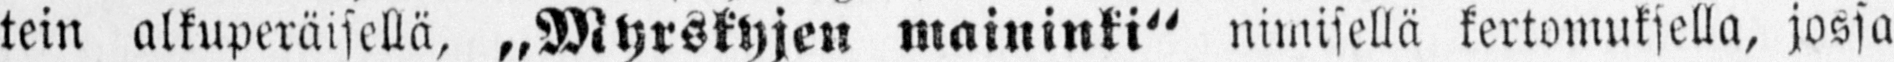tein alkuperäisellä, „Myrskyjen maininki" nimisellä kertomuksella, jossa
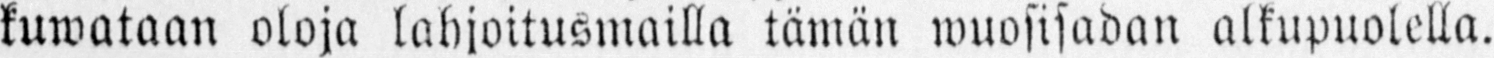kuwataan oloja lahjoitusmailla tämän wuosisadan alkupuolella.
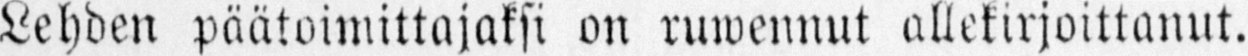Lehden päätoimittajaksi on ruwennut allekirjoittanut.
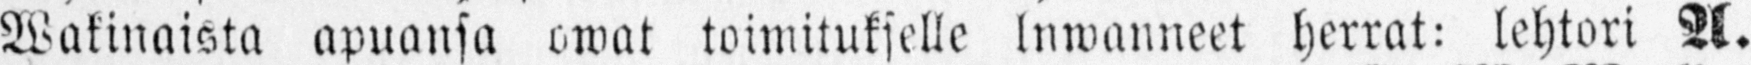Wakinaista apuansa owat toimitukselle lnwanneet herrat: lehtori A.
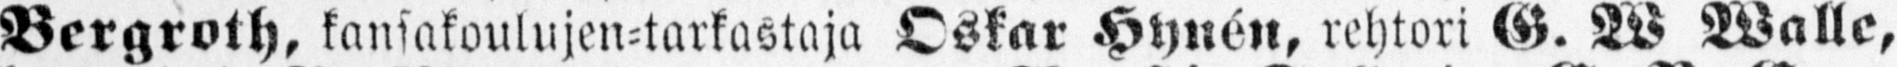Bergroth, kansakoulujen-tarkastaja Oskar Hyn é n, rehtori G. W Walle,
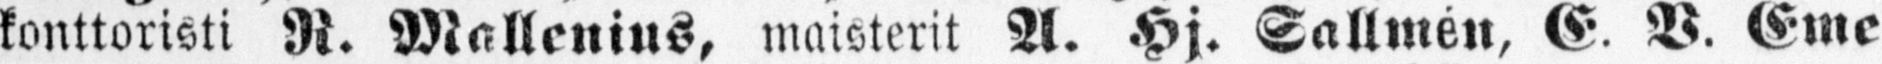konttoristi R. Mallenius, maisterit A. Hj. Sallm é n, E. V. Eme-
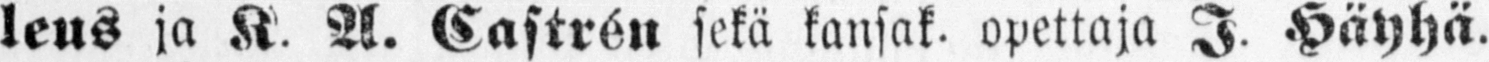leus ja K. A. Castr é n sekä kansak. opettaja J. Häyhä.
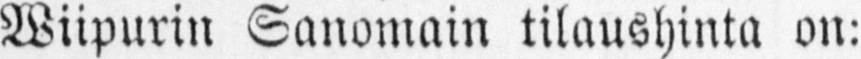Wiipurin Sanomain tilaushinta on:
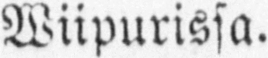Wiipurissa.
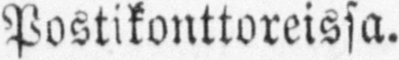Postikonttoreissa.
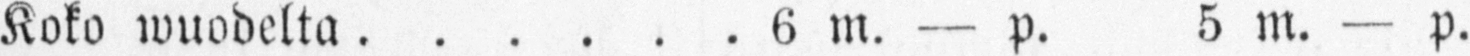Koko wuodelta 6 m. — p. 5 m. — p.
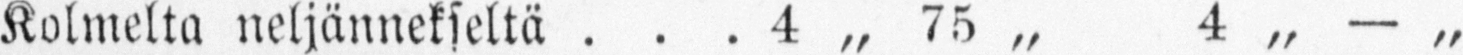Kolmelta neljännekseltä 4 „ 75 „ 4 „ — „
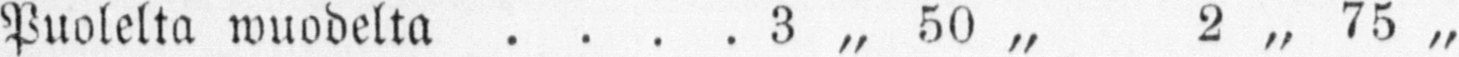Puolelta wuodelta 3 „ 50 „ 2 „ 75 „
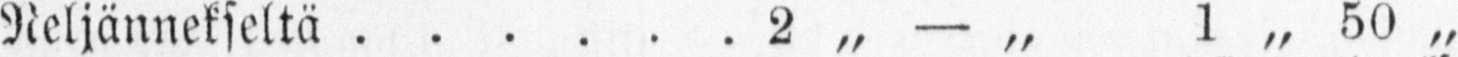Neljännekseltä 2 „ — „ 1 „ 50 „
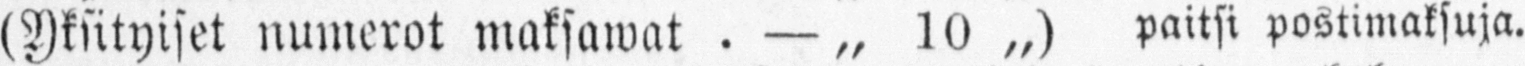(Yksityiset numerot maksawat — „ 10 „) paitsi postimaksuja.
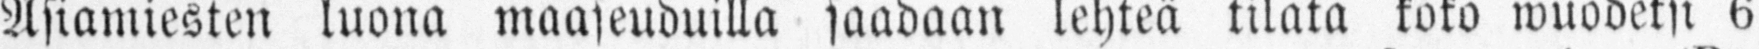Asiamiesten luona maaseuduilla saadaan lehteä tilata koko wuodeksi 6
